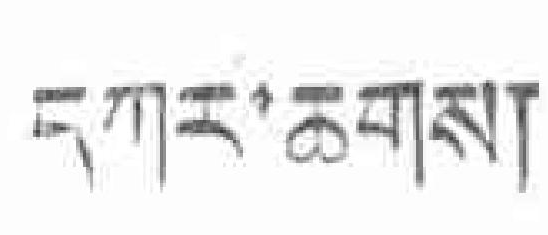དཀར་ཆགས།
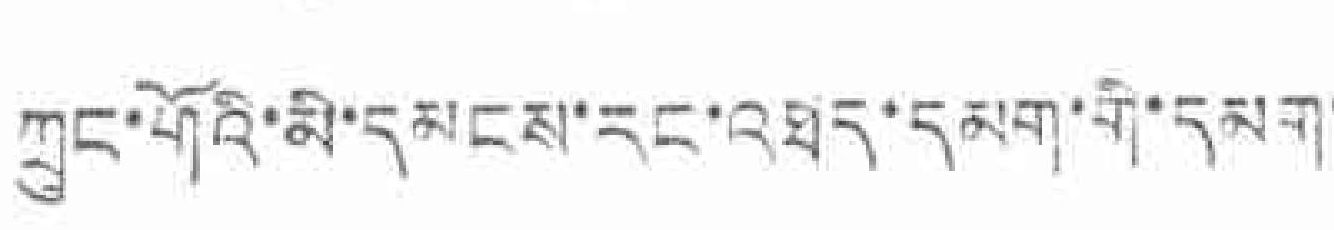ཀྲུང་གོའི་མི་དམངས་རང་འཐད་དམག་གི་དམག་
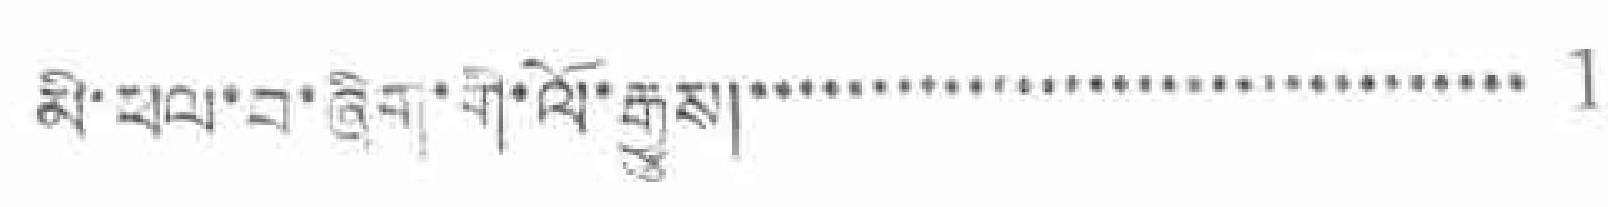མི་ཕལ་བ་ཞིག་གི་ལོ་རྒྱུས།་་་་་་་་་་་་་་་་་་་་་་་་་་་་་་་་ 1
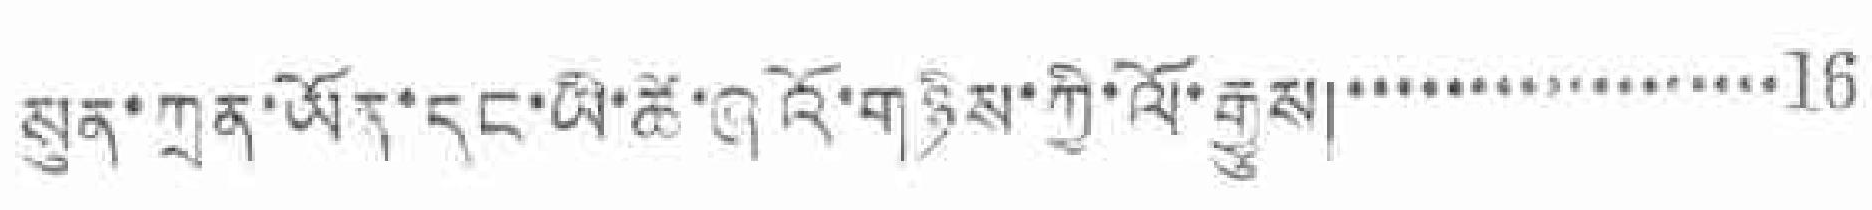སུན་ཀྲན་ཡོན་དང་ཡི་ཚེ་ཞའོ་གཉིས་ཀྱི་ལོ་རྒྱས།་་་་་་་་་་་་་་་་་་16
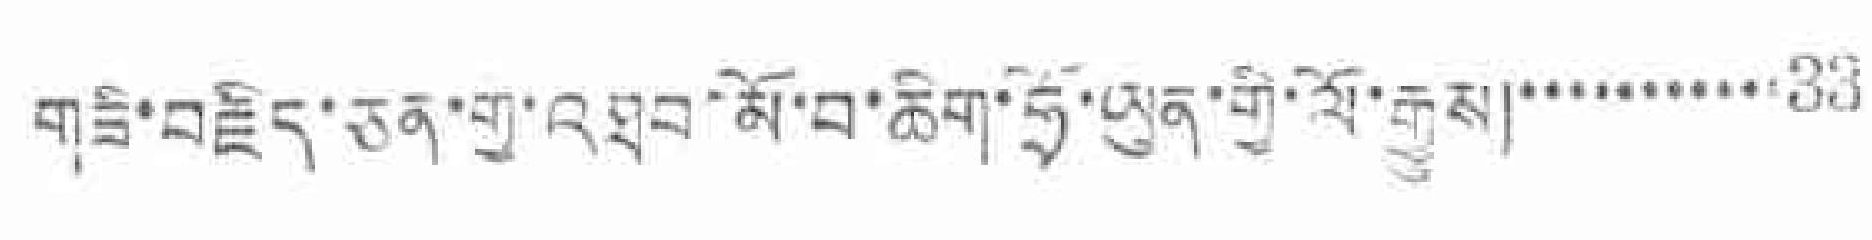གཇི་བརྗིད་ཅན་གྱི་འཐུབ་མོ་བ་ཆིག་ཧྲོ་ཡུན་གྱི་ལོ་རྒྱས་།་་་་་་་་་་་33
